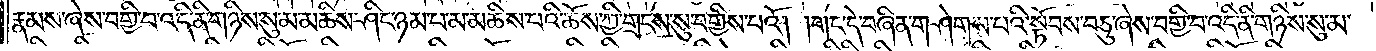རྣམས་ཞེས་བགྱི་བ་འདི་ནི་གཉིས་སུ་མ་མཆིས་ཤིང་ཉམ་པ་མ་མཆིས་པའི་ཆོས་ཀྱི་གྲངས་སུ་བགྱིས་པའོ། །གང་དེ་བཞིན་གཤེགས་པའི་སྟོབས་བཅུ་ཞེས་བགྱི་བ་འདི་ནི་གཉིས་སུ་མ་
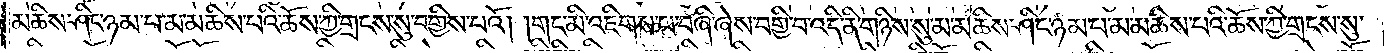མཆིས་ཤིང་ཉམ་པ་མ་མཆིས་པའི་ཆོས་ཀྱི་གྲངས་སུ་བགྱིས་པའོ། །གང་མི་འཇིགས་པ་བཞི་ཞེས་བགྱི་བ་འདི་ནི་གཉིས་སུ་མ་མཆིས་ཤིང་ཉམ་པ་མ་མཆིས་པའི་ཆོས་ཀྱི་གྲངས་སུ་
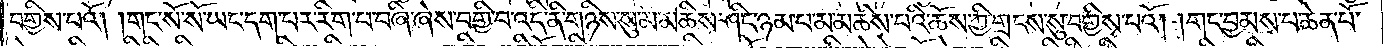བགྱིས་པའོ། །གང་སོ་སོ་ཡང་དག་པར་རིག་པ་བཞི་ཞེས་བགྱི་བ་འདི་ནི་གཉིས་སུ་མ་མཆིས་ཤིང་ཉམ་པ་མ་མཆིས་པའི་ཆོས་ཀྱི་གྲངས་སུ་བགྱིས་པའོ། །གང་བྱམས་པ་ཆེན་པོ་
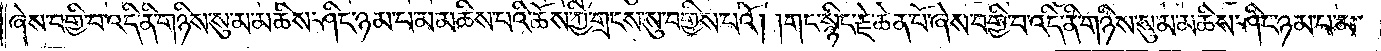ཞེས་བགྱི་བ་འདི་ནི་གཉིས་སུ་མ་མཆིས་ཤིང་ཉམ་པ་མ་མཆིས་པའི་ཆོས་ཀྱི་གྲངས་སུ་བགྱིས་པའོ། །གང་སྙིང་རྗེ་ཆེན་པོ་ཞེས་བགྱི་བ་འདི་ནི་གཉིས་སུ་མ་མཆིས་ཤིང་ཉམ་པ་མ་
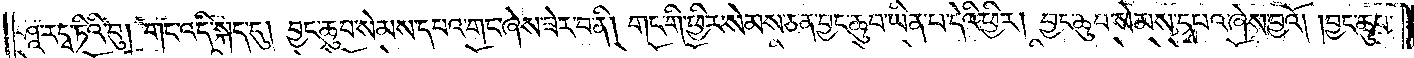ཤཱ་ར་དྭ་ཏིའི་བུ། གང་འདི་སྐད་དུ། བྱང་ཆུབ་སེམས་དཔའ་གང་ཞེས་ཟེར་བ་ནི། གང་གི་ཕྱིར་སེམས་ཅན་བྱང་ཆུབ་ཡིན་པ་དེའི་ཕྱིར། བྱང་ཆུབ་སེམས་དཔའ་ཞེས་བྱའོ། །བྱང་ཆུབ་
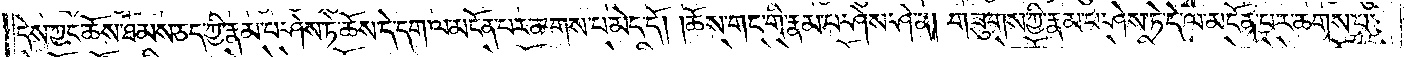དེས་ཀྱང་ཆོས་ཐམས་ཅད་ཀྱི་རྣམ་པ་ཤེས་ཏེ་ཆོས་དེ་དག་ལ་མངོན་པར་ཆགས་པ་མེད་དོ། །ཆོས་གང་གི་རྣམ་པ་ཤེས་ཤེ་ན། གཟུགས་ཀྱི་རྣམ་པ་ཤེས་ཏེ་དེ་ལ་མངོན་པར་ཆགས་པ་
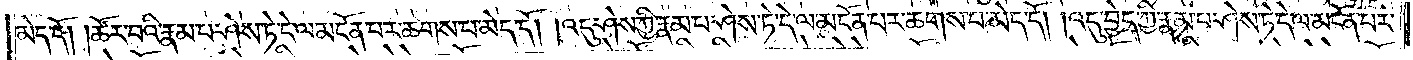མེད་དོ། །ཚོར་བའི་རྣམ་པ་ཤེས་ཏེ་དེ་ལ་མངོན་པར་ཆགས་པ་མེད་དོ། །འདུ་ཤེས་ཀྱི་རྣམ་པ་ཤེས་ཏེ་དེ་ལ་མངོན་པར་ཆགས་པ་མེད་དོ། །འདུ་བྱེད་ཀྱི་རྣམ་པ་ཤེས་ཏེ་དེ་ལ་མངོན་པར་
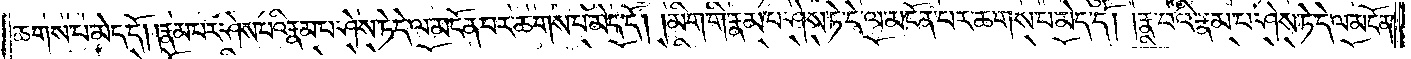ཆགས་པ་མེད་དོ། །རྣམ་པར་ཤེས་པའི་རྣམ་པ་ཤེས་ཏེ་དེ་ལ་མངོན་པར་ཆགས་པ་མེད་དོ། །མིག་གི་རྣམ་པ་ཤེས་ཏེ་དེ་ལ་མངོན་པར་ཆགས་པ་མེད་དོ། །རྣ་བའི་རྣམ་པ་ཤེས་ཏེ་དེ་ལ་མངོན་
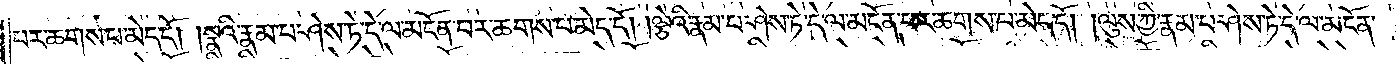པར་ཆགས་པ་མེད་དོ། །སྣའི་རྣམ་པ་ཤེས་ཏེ་དེ་ལ་མངོན་པར་ཆགས་པ་མེད་དོ། །ལྕེའི་རྣམ་པ་ཤེས་ཏེ་དེ་ལ་མངོན་པར་ཆགས་པ་མེད་དོ། །ལུས་ཀྱི་རྣམ་པ་ཤེས་ཏེ་དེ་ལ་མངོན་
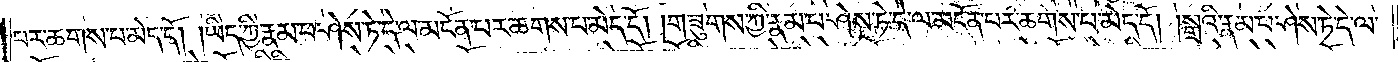པར་ཆགས་པ་མེད་དོ། །ཡིད་ཀྱི་རྣམ་པ་ཤེས་ཏེ་དེ་ལ་མངོན་པར་ཆགས་པ་མེད་དོ། །གཟུགས་ཀྱི་རྣམ་པ་ཤེས་ཏེ་དེ་ལ་མངོན་པར་ཆགས་པ་མེད་དོ། །སྒྲའི་རྣམ་པ་ཤེས་ཏེ་དེ་ལ་
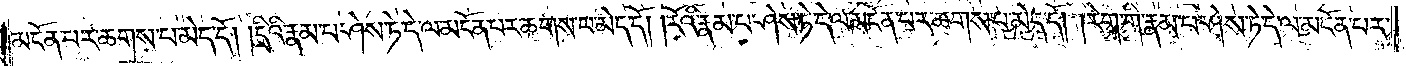མངོན་པར་ཆགས་པ་མེད་དོ། །དྲིའི་རྣམ་པ་ཤེས་ཏེ་དེ་ལ་མངོན་པར་ཆགས་པ་མེད་དོ། །རོའི་རྣམ་པ་ཤེས་ཏེ་དེ་ལ་མངོན་པར་ཆགས་པ་མེད་དོ། །རེག་གི་རྣམ་པ་ཤེས་ཏེ་དེ་ལ་མངོན་པར་
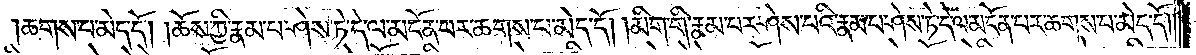ཆགས་པ་མེད་དོ། །ཆོས་ཀྱི་རྣམ་པ་ཤེས་ཏེ་དེ་ལ་མངོན་པར་ཆགས་པ་མེད་དོ། །མིག་གི་རྣམ་པར་ཤེས་པའི་རྣམ་པར་ཤེས་ཏེ་དེ་ལ་མངོན་པར་ཆགས་པ་མེད་དོ། །
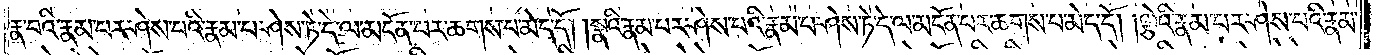རྣ་བའི་རྣམ་པར་ཤེས་པའི་རྣམ་པ་ཤེས་ཏེ་དེ་ལ་མངོན་པར་ཆགས་པ་མེད་དོ། །སྣའི་རྣམ་པར་ཤེས་པའི་རྣམ་པ་ཤེས་ཏེ་དེ་ལ་མངོན་པར་ཆགས་པ་མེད་དོ། །ལྕེའི་རྣམ་པར་ཤེས་པའི་རྣམ་
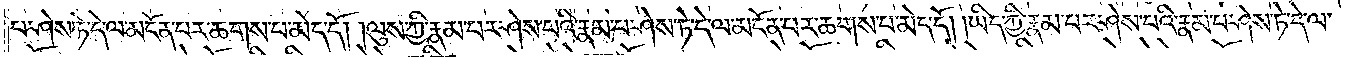པར་ཤེས་ཏེ་དེ་ལ་མངོན་པར་ཆགས་པ་མེད་དོ། །ལུས་ཀྱི་རྣམ་པར་ཤེས་པའི་རྣམ་པ་ཤེས་ཏེ་དེ་ལ་མངོན་པར་ཆགས་པ་མེད་དོ། །ཡིད་ཀྱི་རྣམ་པར་ཤེས་པའི་རྣམ་པ་ཤེས་ཏེ་དེ་ལ་
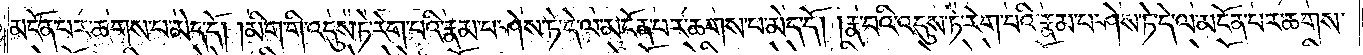མངོན་པར་ཆགས་པ་མེད་དོ། །མིག་གི་འདུས་ཏེ་རེག་པའི་རྣམ་པ་ཤེས་ཏེ་དེ་ལ་མངོན་པར་ཆགས་པ་མེད་དོ། །རྣ་བའི་འདུས་ཏེ་རེག་པའི་རྣམ་པ་ཤེས་ཏེ་དེ་ལ་མངོན་པར་ཆགས་
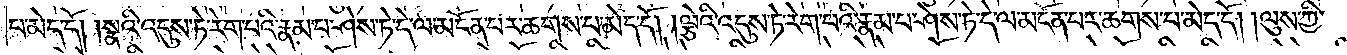པ་མེད་དོ། །སྣའི་འདུས་ཏེ་རེག་པའི་རྣམ་པ་ཤེས་ཏེ་དེ་ལ་མངོན་པར་ཆགས་པ་མེད་དོ། །ལྕེའི་འདུས་ཏེ་རེག་པའི་རྣམ་པ་ཤེས་ཏེ་དེ་ལ་མངོན་པར་ཆགས་པ་མེད་དོ། །ལུས་ཀྱི་
